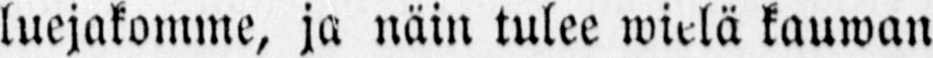luejakomme, ja näin tulee wielä kauwan
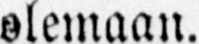olemaan.
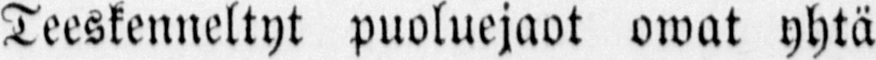Teeskenneltyt puoluejaot owat yhtä
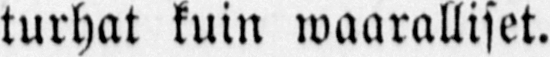turhat kuin waaralliset.
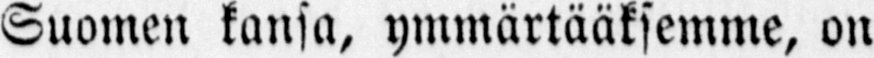Suomen kansa, ymmärtääksemme, on
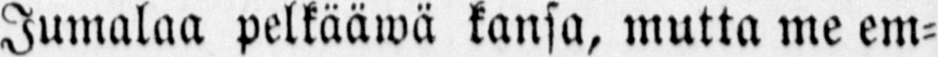Jumalaa pelkääwä kansa, mutta me em-
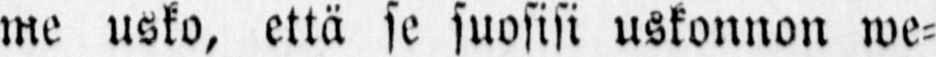me usko, että se suosisi uskonnon we-
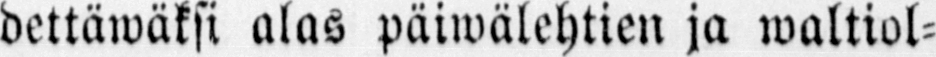dettäwäksi alas päiwälehtien ja waltiol-
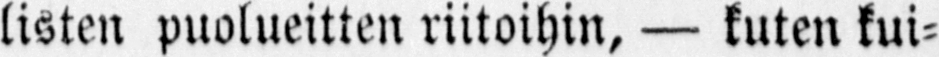listen puolueitten riitoihin, — kuten kui-
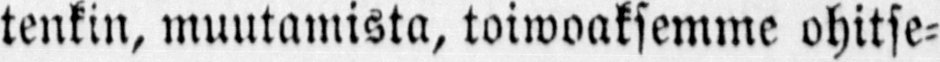tenkin, muutamista, toiwoaksemme ohitse-
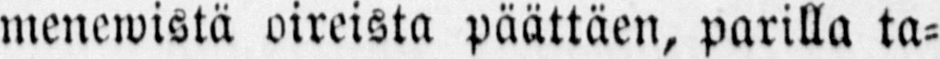menewistä oireista päättäen, parilla ta-
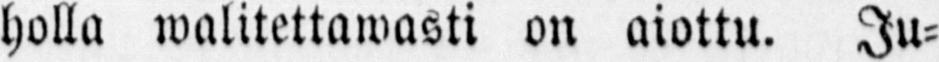holla walitettawasti on aiottu. Ju-
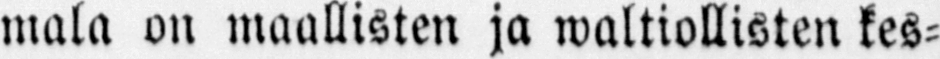mala on maallisten ja waltiollisten kes-
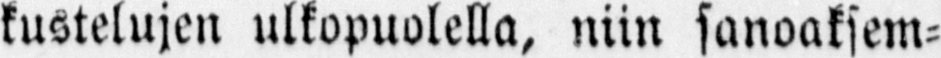kustelujen ulkopuolella, niin sanoaksem-
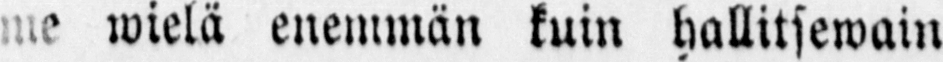me wielä enemmän kuin hallitsewain
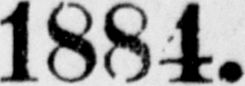1884.
